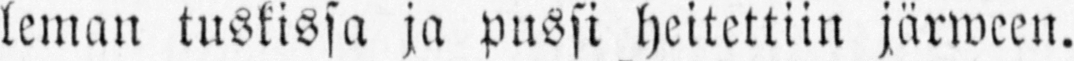leman tuskissa ja pussi heitettiin järween.
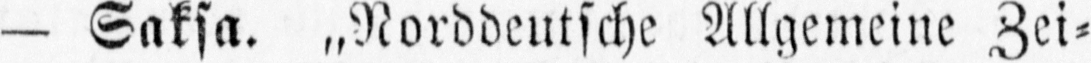— Saksa. „Norddeutsche Allgemeine Zei-
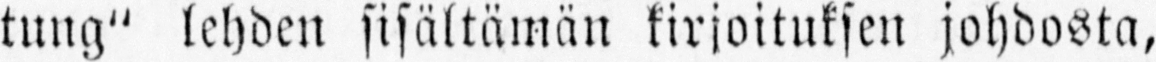tung" lehden sisältämän kirjoituksen johdosta,
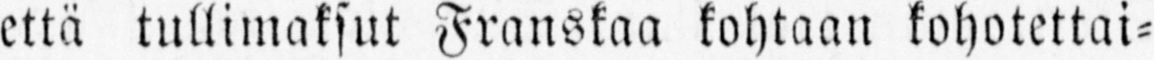että tullimaksut Franskaa kohtaan kohotettai-
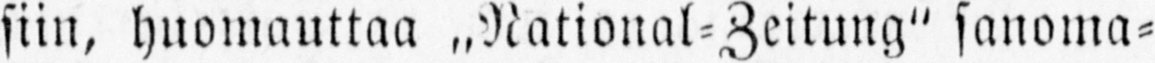siin, huomauttaa ˶National-Zeitung" sanoma-
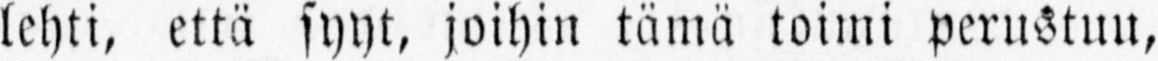lehti, että syyt, joihin tämä toimi perustun,
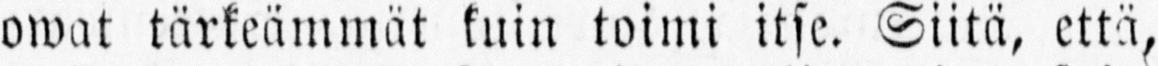owat tärkeämmät kuin toimi itse. Siitä, että,
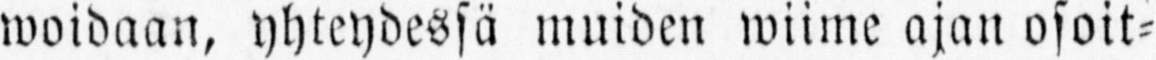woidaan, yhteydessä muiden wiime ajan osoit-
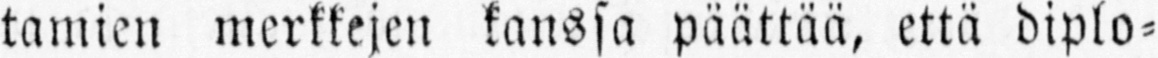tamien merkkejen kanssa päättää, että diplo-
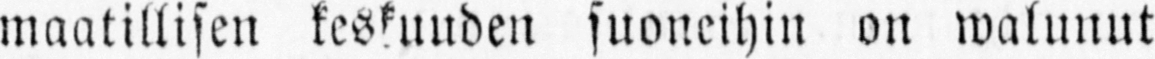maatillisen keskuuden suoneihin on walunut
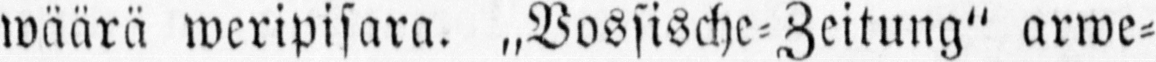wäärä weripisara. „Vossische-Zeitung" arwe-
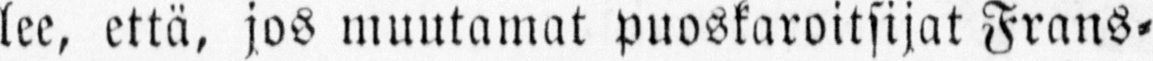lee, että, jos muutamat puoskaroitsijat Frans-
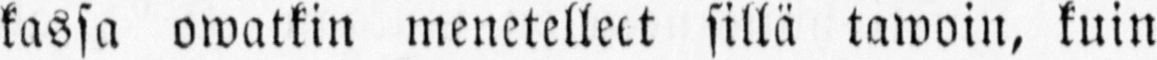kassa owatkin menetelleet sillä tawoin, kuin
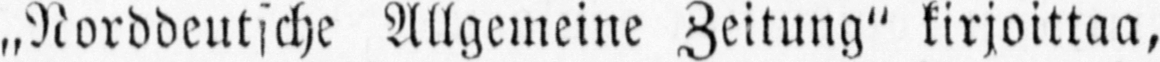„Norddeutsche Allgemeine Zeitung" kirjoittaa,
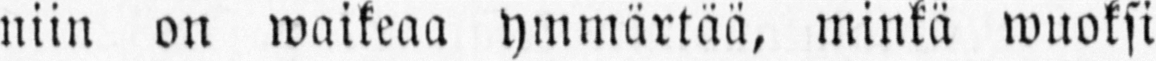niin on waikeaa ymmärtää, minkä wuoksi
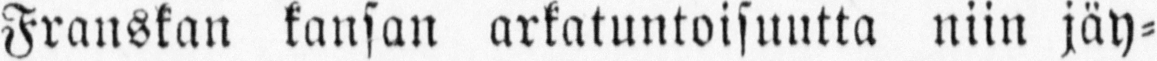Franskan kansan arkatuntoisuutta niin jäy-
